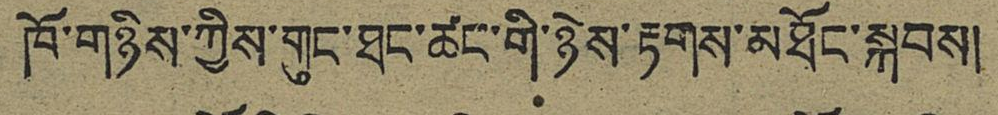ཁོ་གཉིས་ཀྱིས་གུང་ཐང་ཚང་གི་ཉེས་རྟགས་མཐོང་སྐབས།
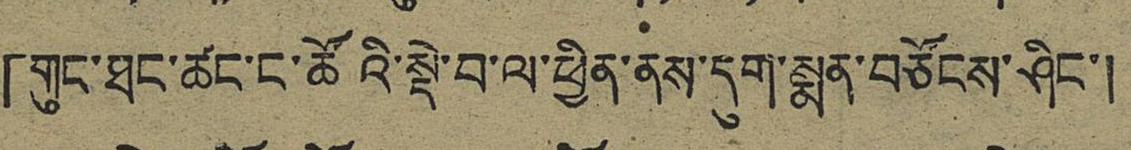「གུང་ཐང་ཚང་ང་ཚོའི་སྡེ་བ་ལ་ཕྱིན་ནས་དུག་སྨན་བཙོངས་ཤིང་།
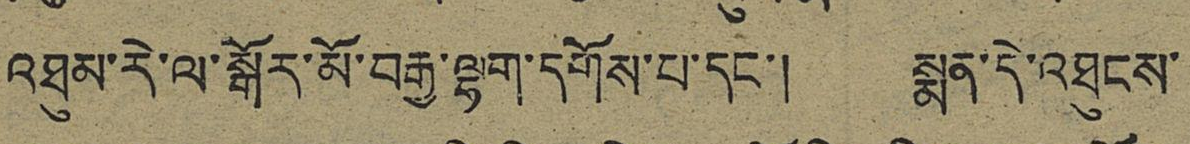འཐུམ་རེ་ལ་སྒོར་མོ་བརྒྱ་ལྷག་དགོས་པ་དང་། སྨན་དེ་འཐུངས་
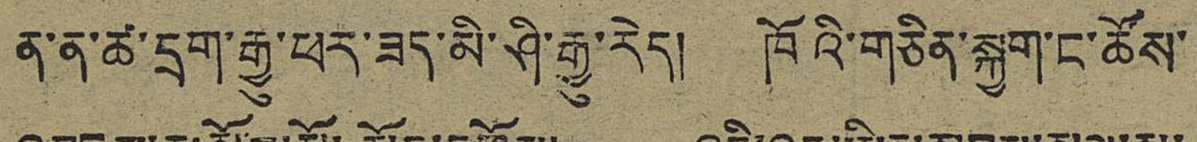ན་ན་ཚ་དྲག་རྒྱུ་ཕར་ཟད་མི་ཤི་རྒྱུ་རེད། ཁོའི་གཅིན་སྐྱག་ང་ཚོས་
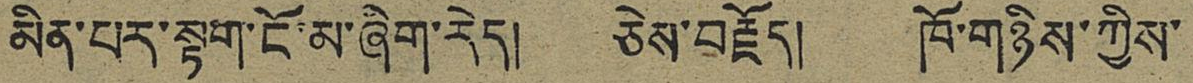མིན་པར་སྟག་ངོ་མ་ཞིག་རེད། ཅེས་བརྗོད། ཁོ་གཉིས་ཀྱིས་
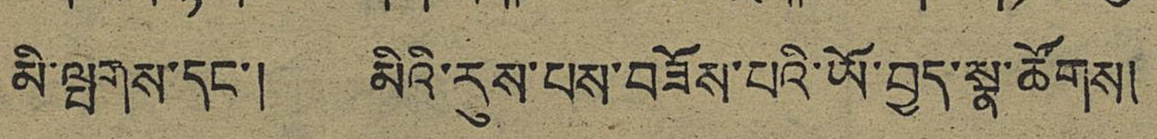མི་ལྤགས་དང་། མིའི་རུས་པས་བཟོས་པའི་ཡོ་བྱད་སྣ་ཚོགས།
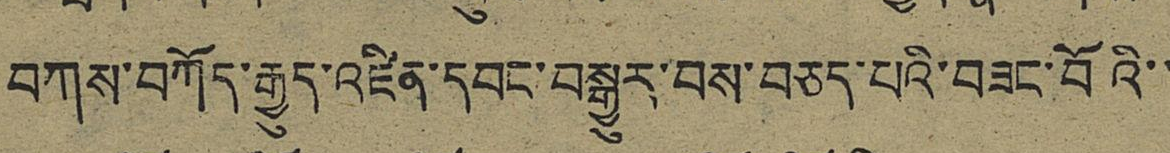བཀས་བཀོད་རྒྱུད་འཛིན་དབང་བསྒྱུར་བས་བཅད་པའི་བཟང་བོའི་་
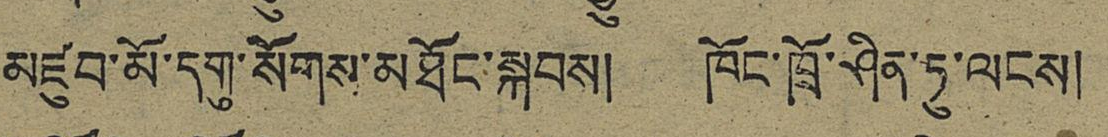མཛུབ་མོ་དགུ་སོགས་མཐོང་སྐབས། ཁོང་ཁྲོ་ཤིན་ཏུ་ལངས།
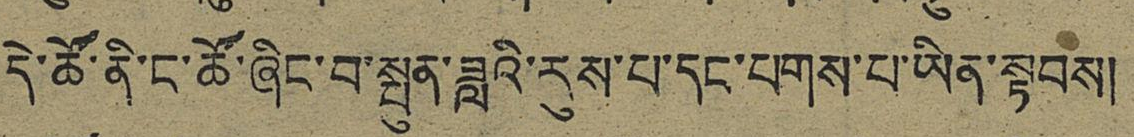དེ་ཚོ་ནི་ང་ཚོ་ཞིང་བ་སྤུན་ཟླའི་རུས་པ་དང་པགས་པ་ཡིན་སྟབས།
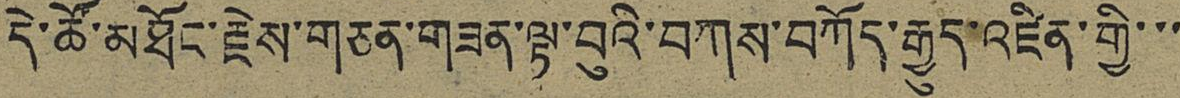དེ་ཚོ་མཐོང་རྗེས་གཅན་གཟན་ལྟ་བུའི་བཀས་བཀོད་རྒྱུད་འཛིན་གྱི་་་
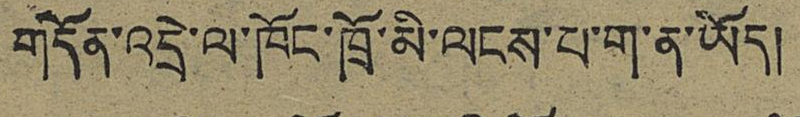གདོན་འདྲེ་ལ་ཁོང་ཁྲོ་མི་ལངས་པ་ག་ན་ཡོད།
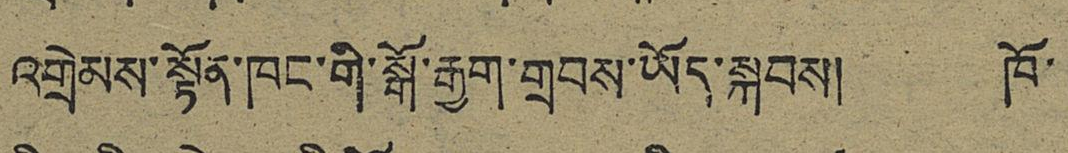འགྲེམས་སྟོན་ཁང་གི་སྒོ་རྒྱག་གྲབས་ཡོད་སྐབས། ཁོ་
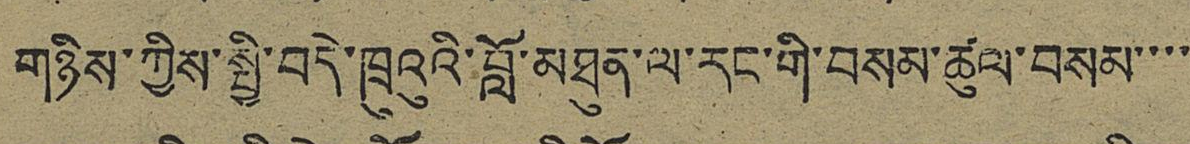གཉིས་ཀྱིས་སྤྱི་བདེ་ཁྲུའུའི་བློ་མཐུན་ལ་རང་གི་བསམ་ཚུལ་བསམ་་་་
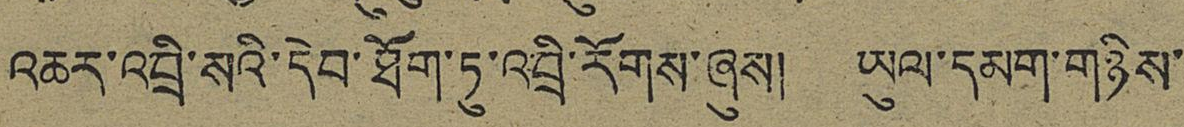འཆར་འབྲི་སའི་དེབ་ཐོག་ཏུ་འབྲི་རོགས་ཞུས། ཡུལ་དམག་གཉིས་
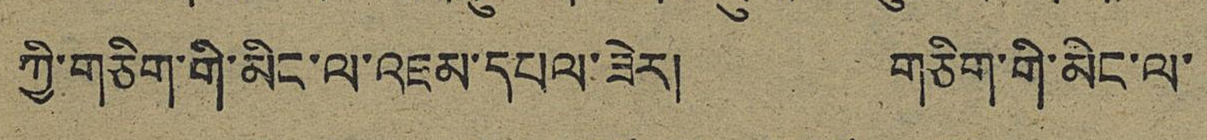ཀྱི་གཅིག་གི་མིང་ལ་འཇམ་དཔལ་ཟེར། གཅིག་གི་མིང་ལ་
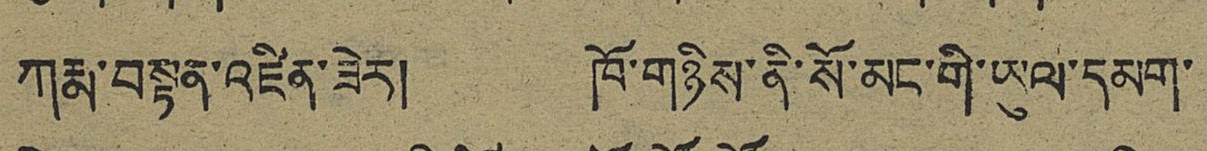ཀརྨ་བསྟན་འཛིན་ཟེར། ཁོ་གཉིས་ནི་སོ་མང་གི་ཡུལ་དམག་
